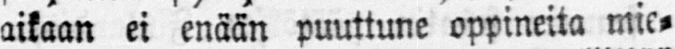aikaan ei enään puuttune oppineita mie-
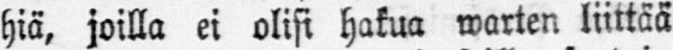hiä, joilla ei olisi hakua warten liittää
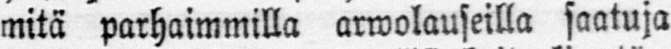mitä parhaimmilla arwolauseilla saatuja
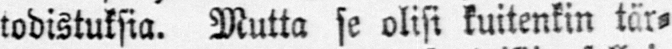todistuksia. Mutta se olisi kuitenkin tär-
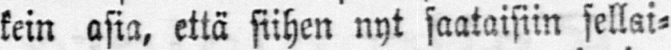kein asia, että siihen nyt saataisiin sellai-
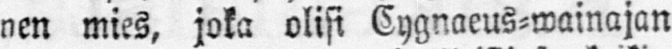nen mies, joka olisi Cygnaeus-wainajan
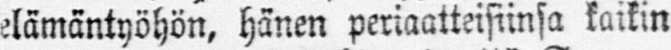elämäntyöhön, hänen periaatteisiinsa kaikin
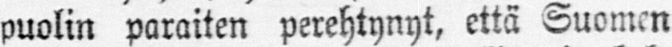puolin paraiten perehtynyt, että Suomen
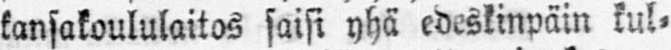kansakoululaitos saisi yhä edeskinpäin kul-
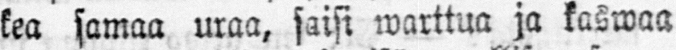kea samaa uraa, saisi warttua ja kaswaa
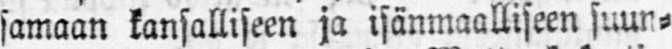samaan kansalliseen ja isänmaalliseen suun-
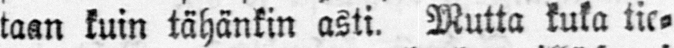taan kuin tähänkin asti. Mutta kuka tie-
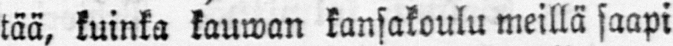tää, kuinka kauwan kansakoulu meillä saapi
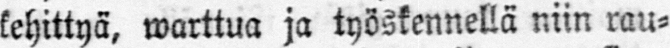kehittyä, warttua ja työskennellä niin rau-
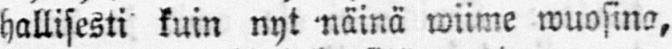hallisesti kuin nyt näinä wiime wuosina,
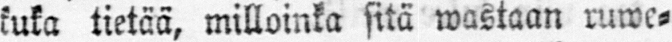kuka tietää, milloinka sitä wastaan ruwe-
